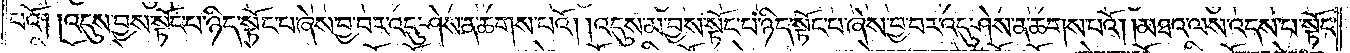པའོ། །འདུས་བྱས་སྟོང་པ་ཉིད་སྟོང་པ་ཞེས་བྱ་བར་འདུ་ཤེས་ན་ཆགས་པའོ། །འདུས་མ་བྱས་སྟོང་པ་ཉིད་སྟོང་པ་ཞེས་བྱ་བར་འདུ་ཤེས་ན་ཆགས་པའོ། །མཐའ་ལས་འདས་པ་སྟོང་
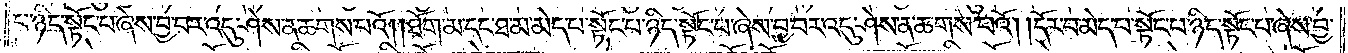པ་ཉིད་སྟོང་པ་ཞེས་བྱ་བར་འདུ་ཤེས་ན་ཆགས་པའོ། །ཐོག་མ་དང་ཐ་མ་མེད་པ་སྟོང་པ་ཉིད་སྟོང་པ་ཞེས་བྱ་བར་འདུ་ཤེས་ན་ཆགས་པའོ། །དོར་བ་མེད་པ་སྟོང་པ་ཉིད་སྟོང་པ་ཞེས་བྱ་
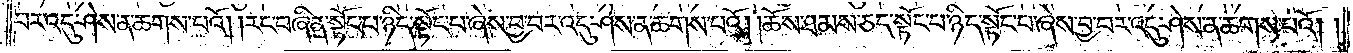བར་འདུ་ཤེས་ན་ཆགས་པའོ། །རང་བཞིན་སྟོང་པ་ཉིད་སྟོང་པ་ཞེས་བྱ་བར་འདུ་ཤེས་ན་ཆགས་པའོ། །ཆོས་ཐམས་ཅད་སྟོང་པ་ཉིད་སྟོང་པ་ཞེས་བྱ་བར་འདུ་ཤེས་ན་ཆགས་པའོ། །
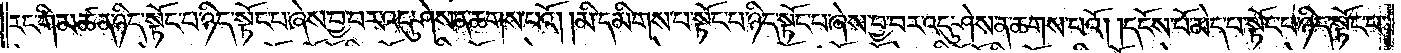རང་གི་མཚན་ཉིད་སྟོང་པ་ཉིད་སྟོང་པ་ཞེས་བྱ་བར་འདུ་ཤེས་ན་ཆགས་པའོ། །མི་དམིགས་པ་སྟོང་པ་ཉིད་སྟོང་པ་ཞེས་བྱ་བར་འདུ་ཤེས་ན་ཆགས་པའོ། །དངོས་པོ་མེད་པ་སྟོང་པ་ཉིད་སྟོང་པ་
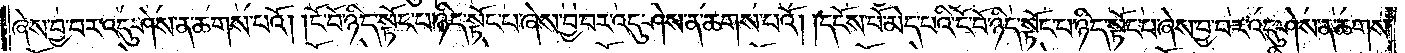ཞེས་བྱ་བར་འདུ་ཤེས་ན་ཆགས་པའོ། །ངོ་བོ་ཉིད་སྟོང་པ་ཉིད་སྟོང་པ་ཞེས་བྱ་བར་འདུ་ཤེས་ན་ཆགས་པའོ། །དངོས་པོ་མེད་པའི་ངོ་བོ་ཉིད་སྟོང་པ་ཉིད་སྟོང་པ་ཞེས་བྱ་བར་འདུ་ཤེས་ན་ཆགས་
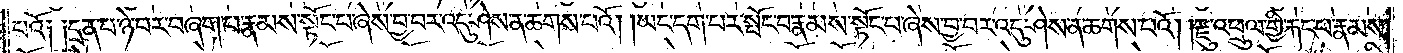པའོ༑ ༑དྲན་པ་ཉེ་བར་བཞག་པ་རྣམས་སྟོང་པ་ཞེས་བྱ་བར་འདུ་ཤེས་ན་ཆགས་པའོ། །ཡང་དག་པར་སྤོང་བ་རྣམས་སྟོང་པ་ཞེས་བྱ་བར་འདུ་ཤེས་ན་ཆགས་པའོ། །རྫུ་འཕྲུལ་གྱི་རྐང་པ་རྣམས་
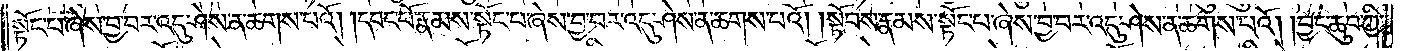སྟོང་པ་ཞེས་བྱ་བར་འདུ་ཤེས་ན་ཆགས་པའོ། །དབང་པོ་རྣམས་སྟོང་པ་ཞེས་བྱ་བར་འདུ་ཤེས་ན་ཆགས་པའོ། །སྟོབས་རྣམས་སྟོང་པ་ཞེས་བྱ་བར་འདུ་ཤེས་ན་ཆགས་པའོ། །བྱང་ཆུབ་ཀྱི་
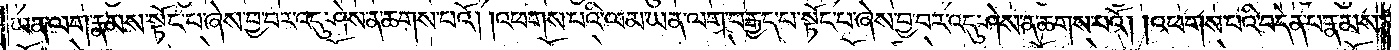ཡན་ལག་རྣམས་སྟོང་པ་ཞེས་བྱ་བར་འདུ་ཤེས་ན་ཆགས་པའོ། །འཕགས་པའི་ལམ་ཡན་ལག་བརྒྱད་པ་སྟོང་པ་ཞེས་བྱ་བར་འདུ་ཤེས་ན་ཆགས་པའོ། །འཕགས་པའི་བདེན་པ་རྣམས་
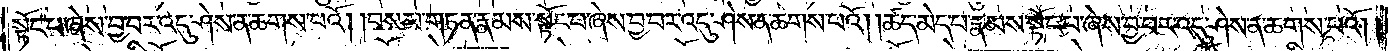སྟོང་པ་ཞེས་བྱ་བར་འདུ་ཤེས་ན་ཆགས་པའོ། །བསམ་གཏན་རྣམས་སྟོང་པ་ཞེས་བྱ་བར་འདུ་ཤེས་ན་ཆགས་པའོ། །ཚད་མེད་པ་རྣམས་སྟོང་པ་ཞེས་བྱ་བར་འདུ་ཤེས་ན་ཆགས་པའོ། །
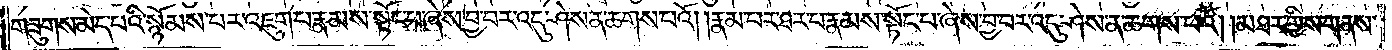གཟུགས་མེད་པའི་སྙོམས་པར་འཇུག་པ་རྣམས་སྟོང་པ་ཞེས་བྱ་བར་འདུ་ཤེས་ན་ཆགས་པའོ། །རྣམ་པར་ཐར་པ་རྣམས་སྟོང་པ་ཞེས་བྱ་བར་འདུ་ཤེས་ན་ཆགས་པའོ། །མཐར་གྱིས་གནས་
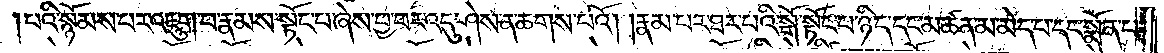པའི་སྙོམས་པར་འཇུག་པ་རྣམས་སྟོང་པ་ཞེས་བྱ་བར་འདུ་ཤེས་ན་ཆགས་པའོ། །རྣམ་པར་ཐར་པའི་སྒོ་སྟོང་པ་ཉིད་དང་མཚན་མ་མེད་པ་དང་སྨོན་པ་
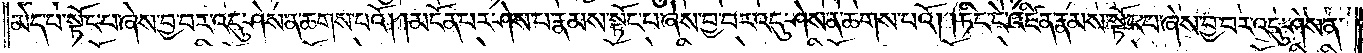མེད་པ་སྟོང་པ་ཞེས་བྱ་བར་འདུ་ཤེས་ན་ཆགས་པའོ། །མངོན་པར་ཤེས་པ་རྣམས་སྟོང་པ་ཞེས་བྱ་བར་འདུ་ཤེས་ན་ཆགས་པའོ། །ཏིང་ངེ་འཛིན་རྣམས་སྟོང་པ་ཞེས་བྱ་བར་འདུ་ཤེས་ན་
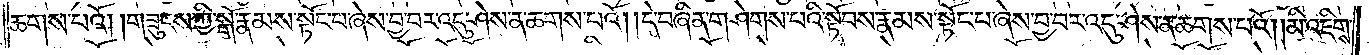ཆགས་པའོ། །གཟུངས་ཀྱི་སྒོ་རྣམས་སྟོང་པ་ཞེས་བྱ་བར་འདུ་ཤེས་ན་ཆགས་པའོ། །དེ་བཞིན་གཤེགས་པའི་སྟོབས་རྣམས་སྟོང་པ་ཞེས་བྱ་བར་འདུ་ཤེས་ན་ཆགས་པའོ། །མི་འཇིགས་
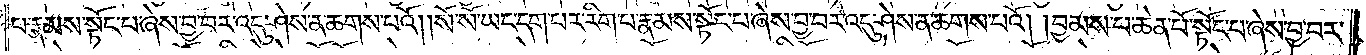པ་རྣམས་སྟོང་པ་ཞེས་བྱ་བར་འདུ་ཤེས་ན་ཆགས་པའོ། །སོ་སོ་ཡང་དག་པར་རིག་པ་རྣམས་སྟོང་པ་ཞེས་བྱ་བར་འདུ་ཤེས་ན་ཆགས་པའོ། །བྱམས་པ་ཆེན་པོ་སྟོང་པ་ཞེས་བྱ་བར་
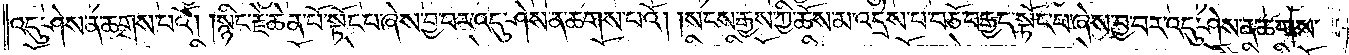འདུ་ཤེས་ན་ཆགས་པའོ། །སྙིང་རྗེ་ཆེན་པོ་སྟོང་པ་ཞེས་བྱ་བར་འདུ་ཤེས་ན་ཆགས་པའོ། །སངས་རྒྱས་ཀྱི་ཆོས་མ་འདྲེས་པ་བཅོ་བརྒྱད་སྟོང་པ་ཞེས་བྱ་བར་འདུ་ཤེས་ན་ཆགས་
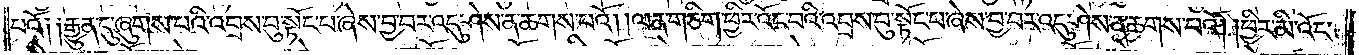པའོ༑ ༑རྒྱུན་དུ་ཞུགས་པའི་འབྲས་བུ་སྟོང་པ་ཞེས་བྱ་བར་འདུ་ཤེས་ན་ཆགས་པའོ། །ལན་གཅིག་ཕྱིར་འོང་བའི་འབྲས་བུ་སྟོང་པ་ཞེས་བྱ་བར་འདུ་ཤེས་ན་ཆགས་པའོ། །ཕྱིར་མི་འོང་
